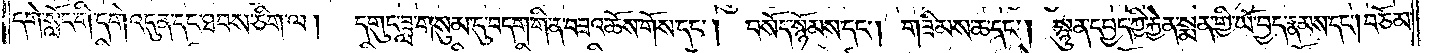དགེ་སློང་གི་དགེ་འདུན་དང་ཐབས་ཅིག་ལ།   དགུང་ཟླ་གསུམ་དུ་བདག་གི་ན་བཟའ་ཆོས་གོས་དང༌། བསོད་སྙོམས་དང༌། གཟིམས་ཆ་དང༌། སྙུན་དཔྱད་ཀྱི་རྐྱེན་སྨན་གྱི་ཡོ་བྱད་རྣམས་དང༌། བཅོམ་
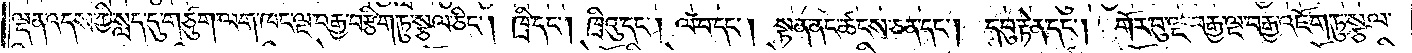ལྡན་འདས་ཀྱི་སླད་དུ་གཙུག་ལག་ཁང་ལྔ་བརྒྱ་བརྩིག་ཏུ་སྩལ་ཅིང༌། ཁྲི་དང༌། ཁྲིའུ་དང༌། ལ་བ་དང༌། སྟན་ནང་ཚངས་ཅན་དང༌། དབུ་རྟེན་དང༌། གོར་བུ་ལྔ་བརྒྱ་ལྔ་བརྒྱ་འཇོག་ཏུ་སྩལ་
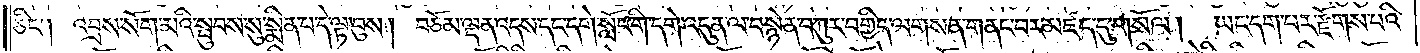ཅིང༌། འབྲས་སོག་མའི་སྦུབས་སུ་སྨིན་པ་དེ་ལྟ་བུས། བཅོམ་ལྡན་འདས་དང་དགེ་སློང་གི་དགེ་འདུན་ལ་བསྙེན་བཀུར་བགྱིད་ལགས་ན་གནང་བར་མཛད་དུ་གསོལ། ཡང་དག་པར་རྫོགས་པའི་
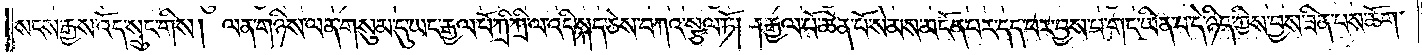སངས་རྒྱས་འོད་སྲུང་གིས། ལན་གཉིས་ལན་གསུམ་དུ་ཡང་རྒྱལ་པོ་ཀྲི་ཀྲི་ལ་འདི་སྐད་ཅེས་བཀའ་སྩལ་ཏོ། །རྒྱལ་པོ་ཆེན་པོ་སེམས་མངོན་པར་དད་པར་བྱས་པ་གང་ཡིན་པ་དེ་ཉིད་ཀྱིས་བྱས་ཟིན་པས་ཆོག་
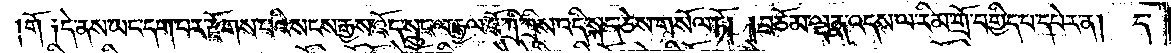གོ༑ དེ་ནས་ཡང་དག་པར་རྫོགས་པའི་སངས་རྒྱས་འོད་སྲུང་ལ་རྒྱལ་པོ་ཀྲི་ཀྲིས་འདི་སྐད་ཅེས་གསོལ་ཏོ། །བཅོམ་ལྡན་འདས་ལ་རིམ་གྲོ་བགྱིད་པ་དཔེར་ན།  ད་
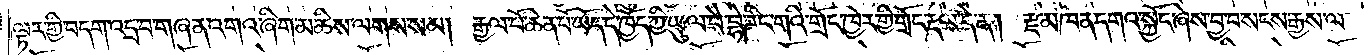ལྟར་གྱི་བདག་འདྲ་བ་གཞན་འགའ་ཞིག་མཆིས་ལགས་སམ། རྒྱལ་པོ་ཆེན་པོ་ཡོད་དེ་ཁྱོད་ཀྱི་ཡུལ་བཻ་བྷེ་ཌིང་གའི་གྲོང་ཁྱེར་གྱི་གྲོང་རྡལ་དེ་ན། རྫ་མཁན་དགའ་སྐྱོང་ཞེས་བྱ་བ་སངས་རྒྱས་ལ་
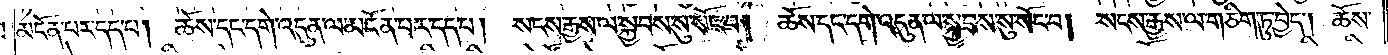མངོན་པར་དད་པ། ཆོས་དང་དགེ་འདུན་ལ་མངོན་པར་དད་པ། སངས་རྒྱས་ལ་སྐྱབས་སུ་སོང་བ། ཆོས་དང་དགེ་འདུན་ལ་སྐྱབས་སུ་སོང་བ། སངས་རྒྱས་ལ་གཅིག་ཏུ་བྱེད། ཆོས་
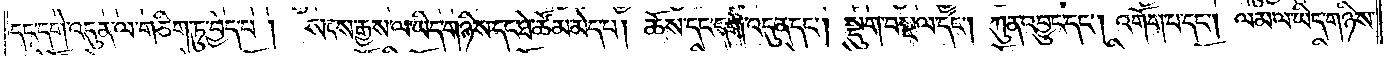དང་དགེ་འདུན་ལ་གཅིག་ཏུ་བྱེད་པ། སངས་རྒྱས་ལ་ཡིད་གཉིས་དང་ཐེ་ཚོམ་མེད་པ། ཆོས་དང་དགེ་འདུན་དང༌། སྡུག་བསྔལ་དང༌། ཀུན་འབྱུང་དང༌། འགོག་པ་དང༌། ལམ་ལ་ཡིད་གཉིས་
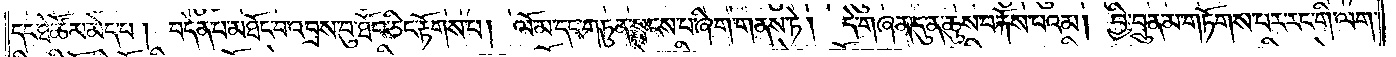དང་ཐེ་ཚོམ་མེད་པ། བདེན་པ་མཐོང་བ་འབྲས་བུ་ཐོབ་ཅིང་རྟོགས་པ། ལོ་མ་དང་གཏུན་སྤངས་པ་ཞིག་གནས་ཏེ།   དེ་གཞན་དུ་ན་ཆུས་བརྐོས་པའམ། བྱི་བྲུན་མ་གཏོགས་པར་རང་གི་ལག་
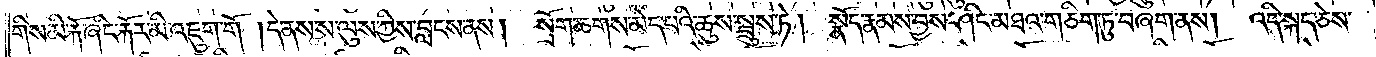གིས་མི་རྐོ་ཞིང་རྐོར་མི་འཇུག་གོ །དེ་ནས་ས་ལུས་ཀྱིས་བླངས་ནས། སྲོག་ཆགས་མེད་པའི་ཆུས་སྦྲུས་ཏེ། སྣོད་རྣམས་བྱས་ཤིང་མཐའ་གཅིག་ཏུ་བཞག་ནས། འདི་སྐད་ཅེས་
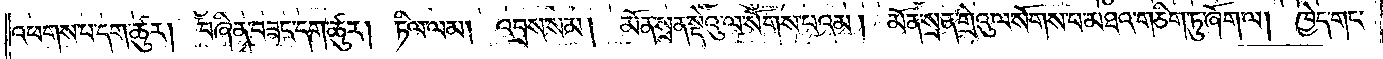འཕགས་པ་དག་ཚུར། བཞིན་བཟང་དག་ཚུར། ཏིལ་ལམ། འབྲས་སམ། མོན་སྲན་སྡེའུ་ལ་སོགས་པའམ། མོན་སྲན་གྲེའུ་ལ་སོགས་པ་མཐའ་གཅིག་ཏུ་ཞོག་ལ། ཁྱེད་གང་
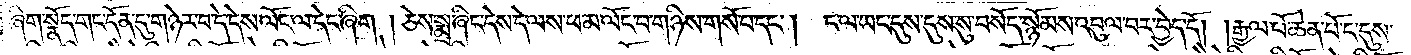ཞིག་སྣོད་གང་དོན་དུ་གཉེར་བ་དེ་དེས་ལོང་ལ་དེང་ཞིག །ཅེས་སྨྲ་ཞིང་དེས་དེ་ལས་ཕ་མ་ལོང་བ་གཉིས་གསོ་བ་དང༌། ང་ལ་ཡང་དུས་དུས་སུ་བསོད་སྙོམས་འབུལ་བར་བྱེད་དོ། །རྒྱལ་པོ་ཆེན་པོ་ང་དུས་
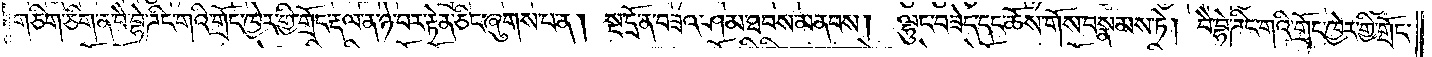གཅིག་ཅིག་ན་བཻ་བྷེ་ཌིང་གའི་གྲོང་ཁྱེར་གྱི་གྲོང་རྡལ་ན་ཉེ་བར་རྟེན་ཅིང་ཞུགས་པ་ན། སྔ་དྲོ་ན་བཟའ་ཤམ་ཐབས་མནབས། ལྷུང་བཟེད་དང་ཆོས་གོས་བསྣམས་ཏེ། བཻ་བྷེ་ཌིང་གའི་གྲོང་ཁྱེར་གྱི་གྲོང་
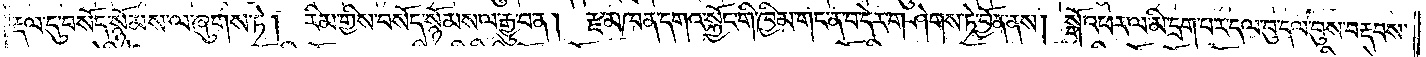རྡལ་དུ་བསོད་སྙོམས་ལ་ཞུགས་ཏེ། རིམ་གྱིས་བསོད་སྙོམས་ལ་རྒྱུ་བ་ན། རྫ་མཁན་དགའ་སྐྱོང་གི་ཁྱིམ་གང་ན་བ་དེར་གཤེགས་ཏེ་བྱོན་ནས། སྒོ་འཕར་ལ་མི་དྲག་པར་དལ་བུ་དལ་བུས་བརྡབས་
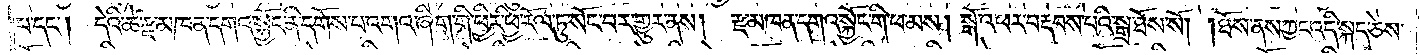པ་དང༌། དེའི་ཚེ་རྫ་མཁན་དགའ་སྐྱོང་ནི་དགོས་པ་འགའ་ཞིག་གི་ཕྱིར་ཕྱི་རོལ་ཏུ་སོང་བར་གྱུར་ནས། རྫ་མཁན་དགའ་སྐྱོང་གི་ཕ་མས། སྒོ་འཕར་བརྡབས་པའི་སྒྲ་ཐོས་སོ། །ཐོས་ནས་ཀྱང་འདི་སྐད་ཅེས་
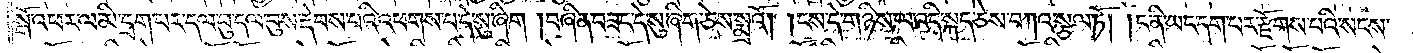སྒོ་འཕར་ལ་མི་དྲག་པར་དལ་བུ་དལ་བུས་རྡེབས་པའི་འཕགས་པ་དེ་སུ་ཞིག །བཞིན་བཟང་དེ་སུ་ཞིག་ཅེས་སྨྲའོ། །ངས་དེ་གཉིས་ལ་འདི་སྐད་ཅེས་བཀའ་སྩལ་ཏོ། །ང་ནི་ཡང་དག་པར་རྫོགས་པའི་སངས་
